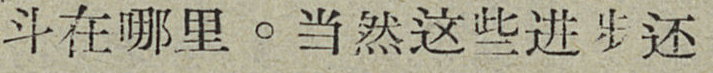斗在哪里。当然这些进步还
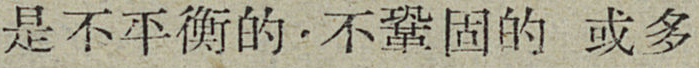是不平衡的，不鞏固的 或多
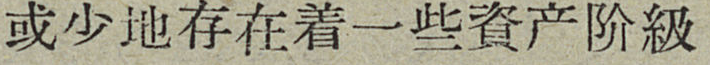或少地存在着一些資产阶級
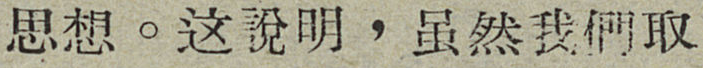思想。这說明，虽然我們取
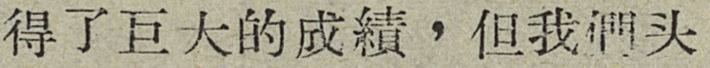得了巨大的成績，但我們头
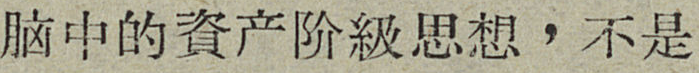脑中的資产阶級思想，不是
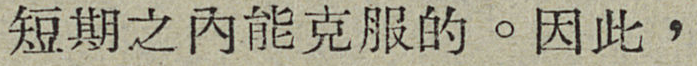短期之内能克服的。因此，
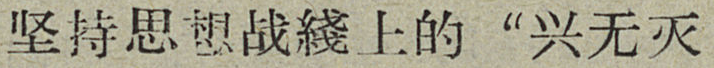坚持思想战綫上的“兴无灭
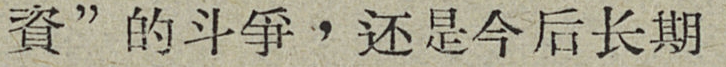資”的斗爭，还是今后长期
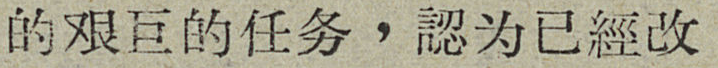的艰巨的任务，認为已經改
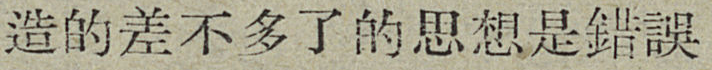造的差不多了的思想是錯誤
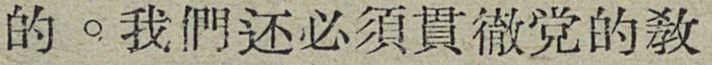的。我們还必須貫徹党的敎
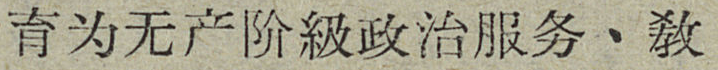育为无产阶級政治服务、敎
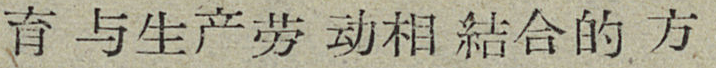育与生产劳动相結合的方
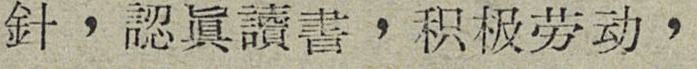針，認眞讀書，积极劳动，
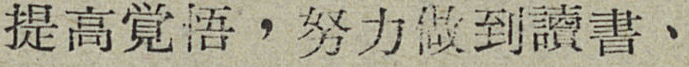提高覚悟，努力做到讀書、
